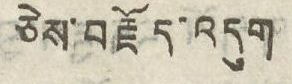ཅེས་བརྗོད་འདུག
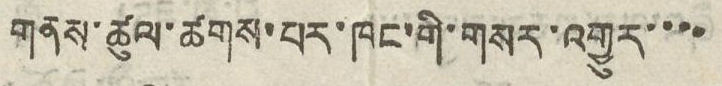གནས་ཚུལ་ཚགས་པར་ཁང་གི་གསར་འགྱུར་་་་
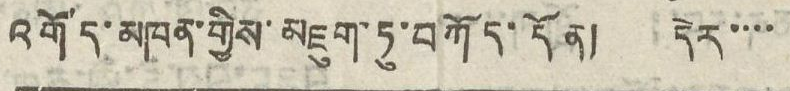འགོད་མཁན་གྱིས་མཇུག་ཏུ་བཀོད་དོན། དེར་་་་
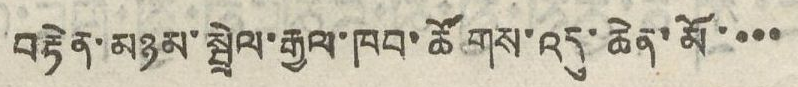བརྟེན་མཉམ་སྦྲེལ་རྒྱལ་ཁབ་ཚོགས་འདུ་ཆེན་མོ་་་་
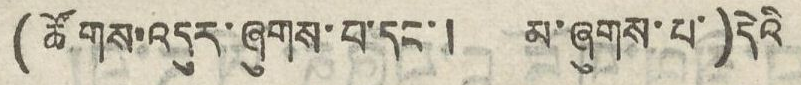(ཚོགས་འདུར་ཞུགས་པ་དང་། མ་ཞུགས་པ་)དེའི
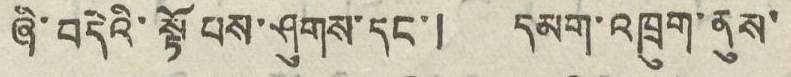ཞི་བདེའི་སྟོབས་ཤུགས་དང་། དམག་འཁྲུག་ནུས་
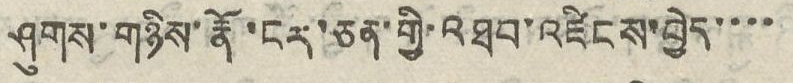ཤུགས་གཉིས་ངར་ཅན་གྱི་འཐབ་འཛིངས་བྱེད་་་་
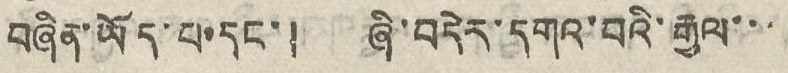བཞིན་ཡོད་པ་དང་། ཞི་བདེར་དགའ་བའི་རྒྱལ་་་
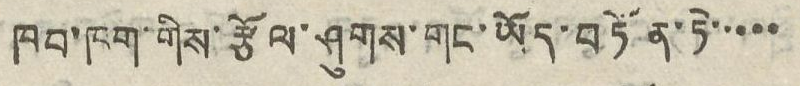ཁབ་ཁག་གིས་རྩོལ་ཤུགས་གང་ཡོད་བཏོན་ཏེ་་་་་
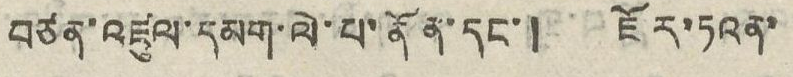བཙན་འཛུལ་དམག་ལེ་པ་ནོན་དང་། ཇོར་ཏའན་
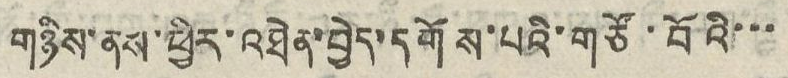གཉིས་ནས་ཕྱིར་འཐེན་བྱེད་དགོས་པའི་གཙོ་བོའི་་་
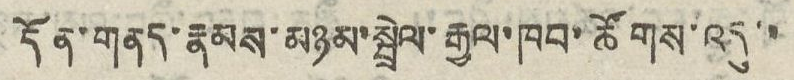དོན་གནད་རྣམས་མཉམ་སྦྲེལ་རྒྱལ་ཁབ་ཚོགས་འདུ་་
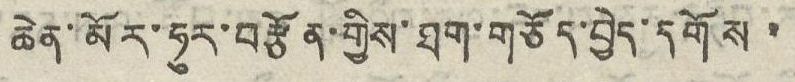ཆེན་མོར་ཧུར་བརྩོན་གྱིས་ཐག་གཅོད་བྱེད་དགོས་
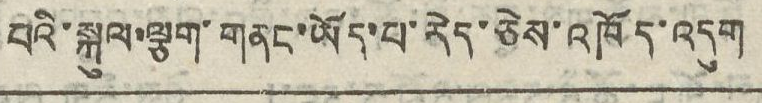པའི་སྐུལ་ལྕག་གནང་ཡོད་པ་རེད་ཅེས་འཁོད་འདུག
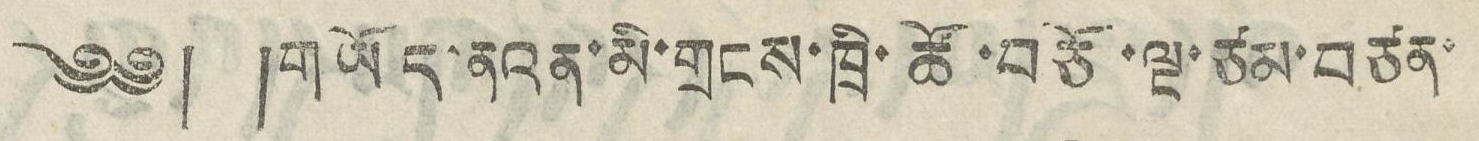༄༅། །གཡོད་ནའན་མི་གྲངས་ཁྲི་ཚོ་བཅོ་ལྔ་ཙམ་བཙན་
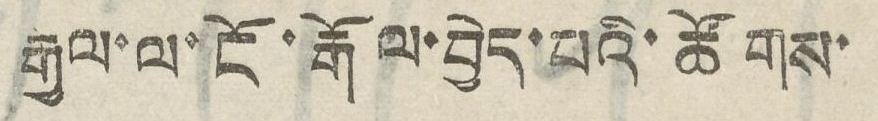རྒྱལ་ལ་ངོ་རྒོལ་བྱེད་པའི་ཚོགས་
